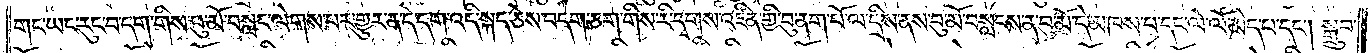གང་ཡང་རུང་བ་དག་གིས་བུ་མོ་བསླང་ལེགས་པར་གྱུར་ན་དེ་དག་འདི་སྐད་ཅེས་བདག་ཅག་གིས་རི་དྭགས་འཛིན་གྱི་བུ་ནག་པོ་ལ་དྲིས་ན་བུ་མོ་བསླངས་ན་བུ་མོ་དེ་མཁས་པ་དང་ལེ་ལོ་མེད་པ་དང༌། སྒྲུབ་
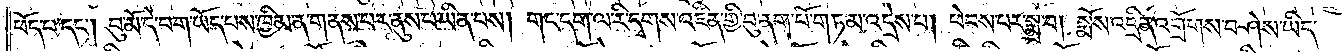ཕོད་པ་དང༌། བུ་མོ་དེ་བག་ཡོད་པས་ཁྱིམ་ན་གནས་པར་ནུས་པ་ཡིན་པས། གང་དག་ལ་རི་དྭགས་འཛིན་གྱི་བུ་ནག་པོ་གཏམ་འདྲེས་པ། ཕེབས་པར་སྨྲ་བ། སྨོས་འདྲིན་འགྲོགས་བཤེས་ཡིད་
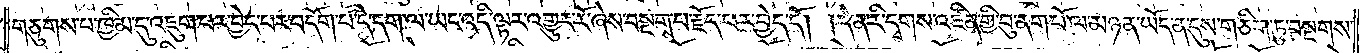གཅུགས་པ་ཁྱིམ་དུ་འཇུག་པར་བྱེད་པར་བདོག་པ་དེ་དག་ལ་ཡང་འདི་ལྟར་འགྱུར་རོ་ཞེས་བསྔགས་པ་རྗོད་པར་བྱེད་དོ། །དེ་ན་རི་དྭགས་འཛིན་གྱི་བུ་ནག་པོ་ལ་མཉན་ཡོད་ན་དུས་གཅིག་ཏུ་བསྔགས་
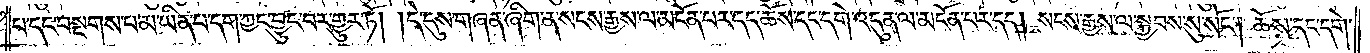པ་དང་བསྔགས་པ་མ་ཡིན་པ་དག་ཀྱང་བྱུང་བར་གྱུར་ཏོ། །དེ་དུས་གཞན་ཞིག་ན་སངས་རྒྱས་ལ་མངོན་པར་དད་ཆོས་དང་དགེ་འདུན་ལ་མངོན་པར་དད། སངས་རྒྱས་ལ་སྐྱབས་སུ་སོང༌། ཆོས་དང་དགེ་
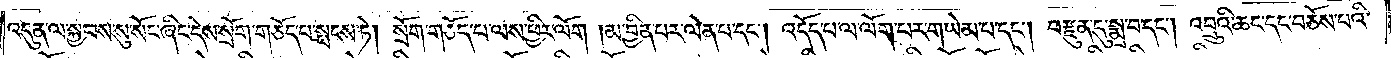འདུན་ལ་སྐྱབས་སུ་སོང་ཞིང་དེས་སྲོག་གཅོད་པ་སྤངས་ཏེ། སྲོག་གཅོད་པ་ལས་ཕྱིར་ལོག །མ་བྱིན་པར་ལེན་པ་དང༌། འདོད་པ་ལ་ལོག་པར་གཡེམ་པ་དང༌། བརྫུན་དུ་སྨྲ་བ་དང༌། འབྲུའི་ཆང་དང་བཅོས་པའི་
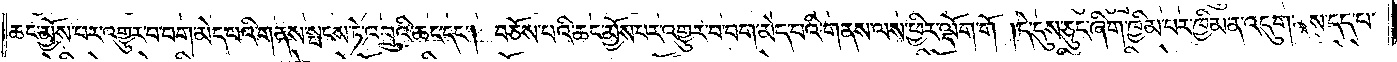ཆང་མྱོས་པར་འགྱུར་བ་བག་མེད་པའི་གནས་སྤངས་ཏེ་འབྲུའི་ཆང་དང༌། བཅོས་པའི་ཆང་མྱོས་པར་འགྱུར་བ་བག་མེད་པའི་གནས་ལས་ཕྱིར་ལྡོག་གོ །དེ་དུས་ཅུང་ཞིག་ཁྱིམ་པར་ཁྱིམ་ན་འདུག་ནས་དད་པ་
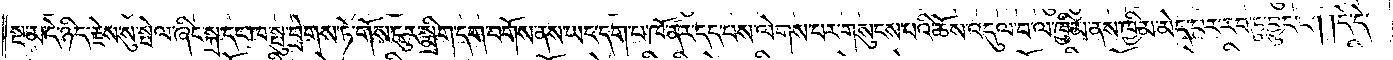སྔ་མ་དེ་ཉིད་རྗེས་སུ་སྤེལ་ཞིང་སྐྲ་དང་ཁ་སྤུ་བྲེགས་ཏེ་གོས་ངུར་སྨྲིག་དག་བགོས་ནས་ཡང་དག་པ་ཁོ་ནར་དད་པས་ལེགས་པར་གསུངས་པའི་ཆོས་འདུལ་བ་ལ་ཁྱིམ་ནས་ཁྱིམ་མེད་པར་རབ་ཏུ་བྱུང་ངོ༌། །དེ་དེ་
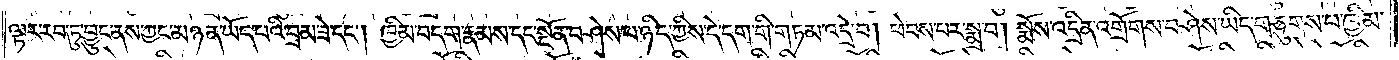ལྟར་རབ་ཏུ་བྱུང་ནས་ཀྱང་མཉན་ཡོད་པའི་བྲམ་ཟེ་དང༌། ཁྱིམ་བདག་རྣམས་དང་སྔོན་བཤེས་པ་ཉིད་ཀྱིས་དེ་དག་གི་གཏམ་འདྲེ་བ། ཕེབས་པར་སྨྲ་བ། སྨོས་འདྲིན་འགྲོགས་བཤེས་ཡིད་གཅུགས་པ་ཁྱིམ་
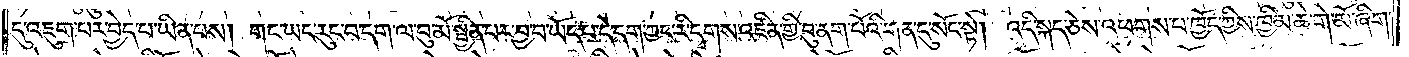དུ་འཇུག་པར་བྱེད་པ་ཡིན་པས། གང་ཡང་རུང་བ་དག་ལ་བུ་མོ་སྦྱིན་པར་བྱ་བ་ཡོད་པ་དེ་དག་ཀྱང་རི་དྭགས་འཛིན་གྱི་བུ་ནག་པོའི་གན་དུ་སོང་སྟེ། འདི་སྐད་ཅེས་འཕགས་པ་ཁྱོད་ཀྱིས་ཁྱིམ་ཆེ་གེ་མོ་ཞིག་
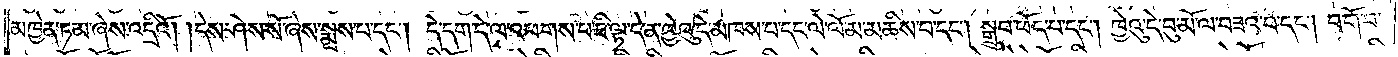མཁྱེན་ཏམ་ཞེས་འདྲིའོ། །དེས་ཤེས་སོ་ཞེས་སྨྲས་པ་དང༌། དེ་དག་དེ་ལ་འཕགས་པ་ཇི་ལྟ་དེ་ན་ཁྱེའུ་དེ་མཁས་པ་དང་ལེ་ལོ་མ་མཆིས་པ་དང༌། སྒྲུབ་ཕོད་པ་དང༌། ཁྱེའུ་དེ་བུ་མོ་ལ་བཟའ་བ་དང༌། བགོ་བ་
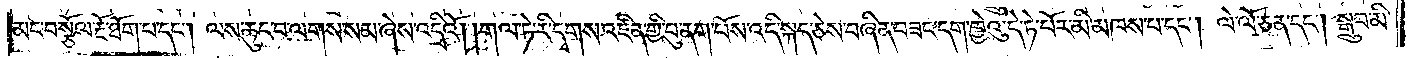མང་བ་སྩོལ་རྔོ་ཐོག་པ་དང༌། ལས་ཆུང་བ་ལགས་སམ་ཞེས་འདྲིའོ། །གལ་ཏེ་རི་དྭགས་འཛིན་གྱི་བུ་ནག་པོས་འདི་སྐད་ཅེས་བཞིན་བཟང་དག་ཁྱེའུ་དེ་ཏེ་པོར་མི་མཁས་པ་དང༌། ལེ་ལོ་ཅན་དང༌། སྒྲུབ་མི་
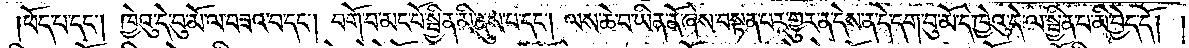།ཕོད་པ་དང༌། ཁྱེའུ་དེ་བུ་མོ་ལ་བཟའ་བ་དང༌། བགོ་བ་མང་པོ་སྦྱིན་མི་ནུས་པ་དང༌། ལས་ཆེ་བ་ཡིན་ནོ་ཞེས་བསྟན་པར་གྱུར་ན་དེས་ན་དེ་དག་བུ་མོ་དེ་ཁྱེའུ་དེ་ལ་སྦྱིན་པ་མི་བྱེད་དོ། །
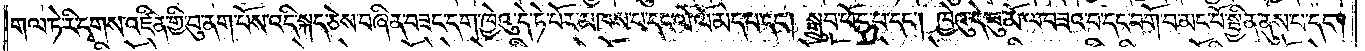གལ་ཏེ་རི་དྭགས་འཛིན་གྱི་བུ་ནག་པོས་འདི་སྐད་ཅེས་བཞིན་བཟང་དག་ཁྱེའུ་དེ་ཏེ་པོར་མཁས་པ་དང་ལེ་ལོ་མེད་པ་དང༌། སྒྲུབ་ཕོད་པ་དང༌། ཁྱེའུ་དེ་བུ་མོ་ལ་བཟའ་བ་དང་བགོ་བ་མང་པོ་སྦྱིན་ནུས་པ་དང༌།
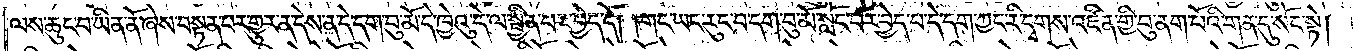ལས་ཆུང་བ་ཡིན་ནོ་ཞེས་བསྟན་པར་གྱུར་ན་དེས་ན་དེ་དག་བུ་མོ་དེ་ཁྱེའུ་དེ་ལ་སྦྱིན་པར་བྱེད་དོ། །གང་ཡང་རུང་བ་དག་བུ་མོ་སློང་བར་བྱེད་པ་དེ་དག་ཀྱང་རི་དྭགས་འཛིན་གྱི་བུ་ནག་པོའི་གན་དུ་སོང་སྟེ།
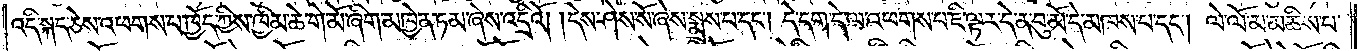འདི་སྐད་ཅེས་འཕགས་པ་ཁྱོད་ཀྱིས་ཁྱིམ་ཆེ་གེ་མོ་ཞིག་མཁྱེན་ཏམ་ཞེས་འདྲིའོ། །དེས་ཤེས་སོ་ཞེས་སྨྲས་པ་དང༌། དེ་དག་དེ་ལ་འཕགས་པ་ཇི་ལྟར་དེ་ན་བུ་མོ་དེ་མཁས་པ་དང༌། ལེ་ལོ་མ་མཆིས་པ་
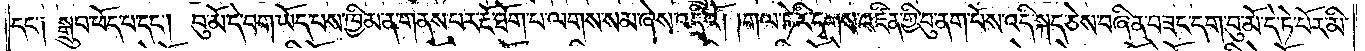དང༌། སྒྲུབ་ཕོད་པ་དང༌། བུ་མོ་དེ་བག་ཡོད་པས་ཁྱིམ་ན་གནས་པར་རྔོ་ཐོག་པ་ལགས་སམ་ཞེས་འདྲིའོ། །གལ་ཏེ་རི་དྭགས་འཛིན་གྱི་བུ་ནག་པོས་འདི་སྐད་ཅེས་བཞིན་བཟང་དག་བུ་མོ་དེ་ཏེ་པོར་མི་
